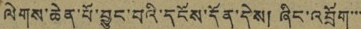ལེགས་ཆེན་པོ་བྱུང་བའི་དངོས་དོན་དེས། ཞིང་འབྲོག་་་
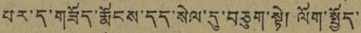པར་ད་གཟོད་རྨོངས་དད་སེལ་དུ་བཅུག་སྟེ། ལོག་སྤྱོད་
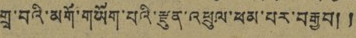གྲྭ་བའི་མགོ་གཡོག་པའི་རྫུན་འཕྲུལ་ཕམ་པར་བརྒྱབ། །
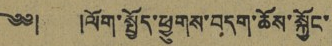༄༅། །ལོག་སྤྱོད་ཕྱུགས་བདག་ཆོས་སྐྱོང་
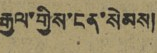རྒྱལ་གྱིས་ངན་སེམས།
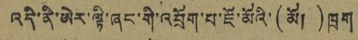འདི་ནི་ཨེར་ལྟི་ཞང་གི་འབྲོག་པ་ཇོ་མོའི་(མོ། )ཁྲག
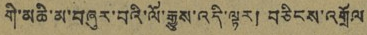གི་མཆི་མ་བཞུར་བའི་ལོ་རྒྱུས་འདི་ལྟར། བཅིངས་འགྲོལ
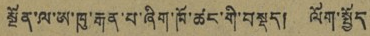སྔོན་ལ་ཨ་ཁུ་རྒན་པ་ཞིག་ཁོ་ཚང་གི་བསྡད། ལོག་སྤྱོད
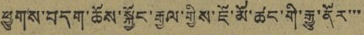ཕྱུགས་བདག་ཆོས་སྐྱོང་རྒྱལ་གྱིས་ཇོ་མོ་ཚང་གི་རྒྱུ་ནོར་་་
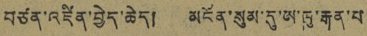བཙན་འཛིན་བྱེད་ཆེད། མངོན་སུམ་དུ་ཨ་ཁུ་རྒན་པ
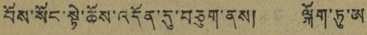བོས་སོང་སྟེ་ཆོས་འདོན་དུ་བཅུག་ནས། ལྐོག་ཏུ་ཨ
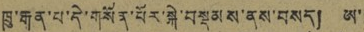ཁུ་རྒན་པ་དེ་གསོན་པོར་སྐེ་བསྡམས་ནས་བསད། ཨ་
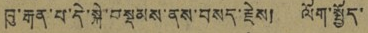ཁུ་རྒན་པ་དེ་སྐེ་བསྡམས་ནས་བསད་རྗེས། ལོག་སྤྱོད་
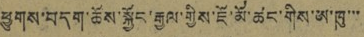ཕྱུགས་བདག་ཆོས་སྐྱོང་རྒྱལ་གྱིས་ཇོ་མོ་ཚང་གིས་ཨ་ཁུ་་་
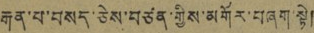རྒན་པ་བསད་ཅེས་བཙན་གྱིས་མགོར་བཞག་སྟེ།
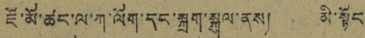ཇོ་མོ་ཚང་ལ་ཀ་ལོག་དང་སྐྲག་སྐུལ་ནས། མི་སྟོང
